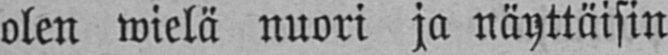olen wielä nuori ja näyttäisin
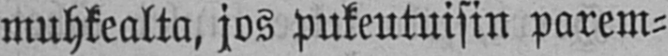muhkealta, jos pukeutuisin parem-
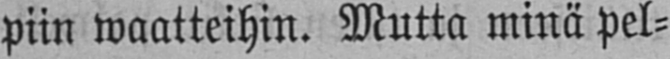piin waatteihin. Mutta minä pel-
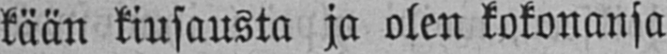kään kiusausta ja olen kokonansa
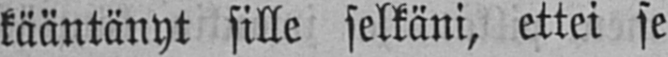kääntänyt sille selkäni, ettei se
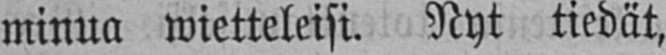minua wietteleisi. Nyt tiedät,
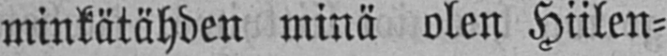minkätähden minä olen Hiilen-
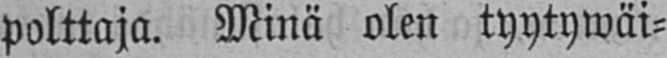polttaja. Minä olen tyytywäi-
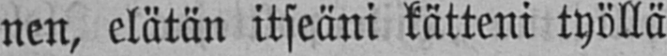nen, elätän itseäni kätteni työllä
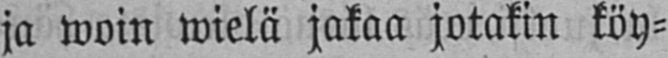ja woin wielä jakaa jotakin köy-
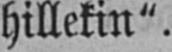hillekin".
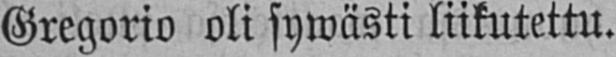Gregorio oli sywästi liikutettu.
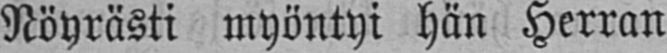Nöyrästi myöntyi hän Herran
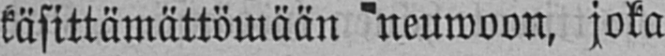käsittämättöwään neuwoon, joka
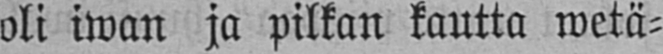oli iwan ja pilkan kautta wetä-
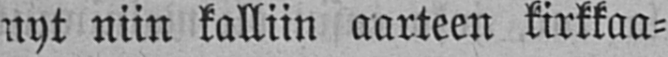nyt niin kalliin aarteen kirkkaa-
